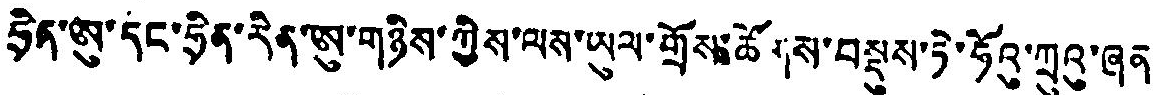ཧྲིན་ཨུ་དང་ཧྲིན་རིན་ཨུ་གཉིས་ཀྱིས་ལས་ཡུལ་གྲོས་ཚོགས་བསྡུས་ཏེ་ཧོའུ་ཀྲུའུ་ཞན་
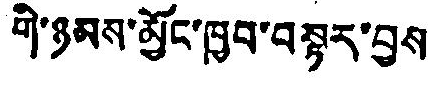གི་ཉམས་མྱོང་ཁྱབ་བསྟར་བྱས
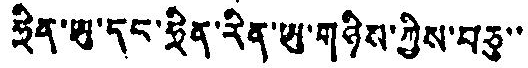ཧྲིན་ཡུ་དང་ཧྲིན་རིན་ཡུ་གཉིས་ཀྱིས་བཅུ་་
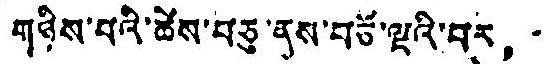གཉིས་པའི་ཚེས་བཅུ་ནས་བཅོ་ལྔའི་བར，
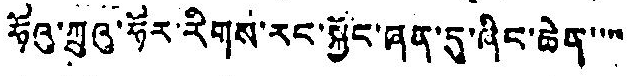ཧོའུ་ཀྲུའུ་ཧོར་རིགས་རང་སྐྱོང་ཞན་དུ་ཞིང་ཆེན་་་་
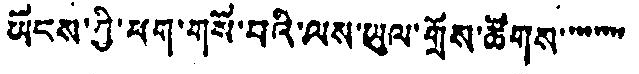ཡོངས་ཀྱི་ཕག་གསོ་བའི་ལས་ཡུལ་གྲོས་ཚོགས་་་་་་་་
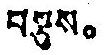བསྡུས。
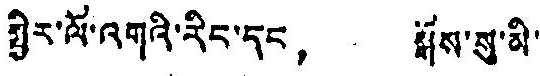སྤྱིར་ལོ་འགའི་རིང་དང， སྒོས་སུ་མི་
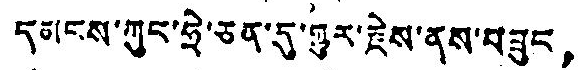དམངས་ཀུང་ཧྲེ་ཅན་དུ་གྱུར་རྗེས་ནས་བཟུང，
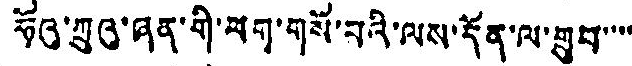ཧོའུ་ཀྲུའུ་ཞན་གི་ཕག་གསོ་བའི་ལས་དོན་ལ་གྲུབ་་་་
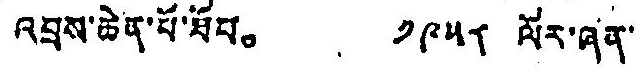འབྲས་ཆེན་པོ་ཐོབ。 ༡༩༥༨ ལོར་ཞན་
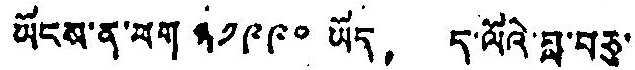ཡོངས་ན་ཕག ༡༩༩༠ ཡོད， ད་ལོའི་བླ་བཅུ་
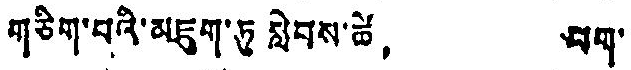གཅིག་པའི་མཇུག་ཏུ སླེབས་ཚེ， ཕག་
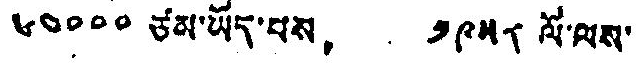༦༠༠༠༠ ཙམ་ཡོད་པས， ༡༩༥༨ ལོ་ལས་
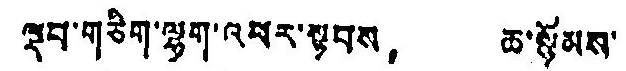ལྡབ་གཅིག་ལྷག་འཕར་སྟབས， ཆ་སྙོམས་
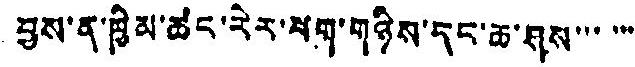བྱས་ན་ཁྱིམ་ཚང་རེར་ཕག་གཉིས་དང་ཆ་ཤས་་་་་་
